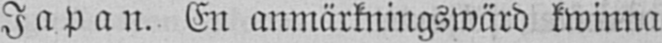Japan. En anmärkningswärd kwinna
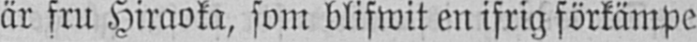är fru Hiraoka, som blifwit en ifrig förkämpe
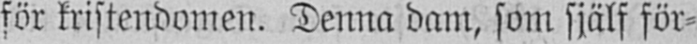för kristendomen. Denna dam, som själf för-
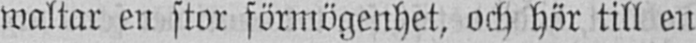waltar en stor förmögenhet, och hör till en
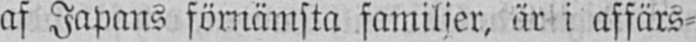af Japans förnämsta familjer, är i affärs-
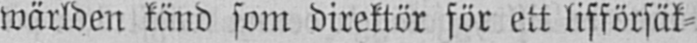wärlden känd som direktör för ett lifförsäk-
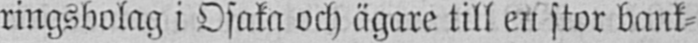ringsbolag i Osaka och ägare till en stor bank-
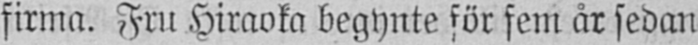firma. Fru Hiraoka begynte för fem år sedan
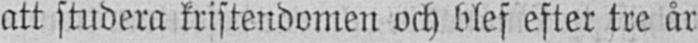att studera kristendomen och blef efter tre år
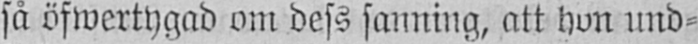så öfwertygad om dess sanning, att hon und-
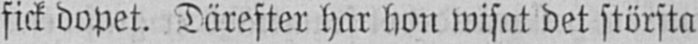fick dopet. Därefter har hon wisat det största
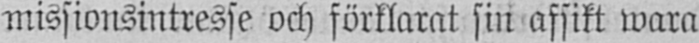missionsintresse och förklarat sin afsikt wara
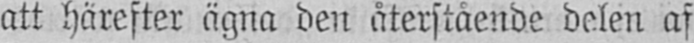att härefter ägna den återstående delen af
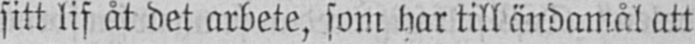sitt lif åt det arbete, som har till ändamål att
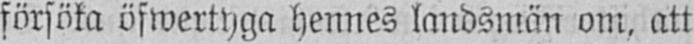försöka öfwertyga hennes landsmän om, att
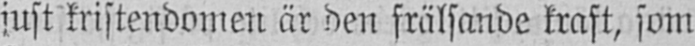just kristendomen är den frälsande kraft, som
